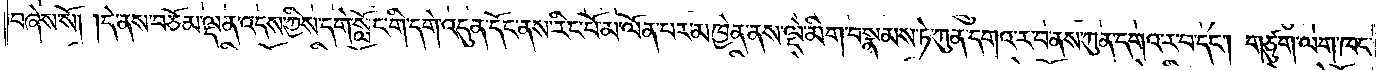བཞེས་སོ། །དེ་ནས་བཅོམ་ལྡན་འདས་ཀྱིས་དགེ་སློང་གི་དགེ་འདུན་དོང་ནས་རིང་པོ་མ་ལོན་པར་མཁྱེན་ནས་ལྡེ་མིག་བསྣམས་ཏེ་ཀུན་དགའ་ར་བ་ནས་ཀུན་དགའ་ར་བ་དང༌། གཙུག་ལག་ཁང་
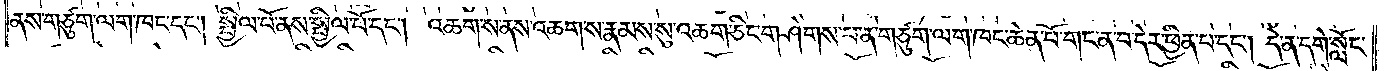ནས་གཙུག་ལག་ཁང་དང༌། སྤྱིལ་པོ་ནས་སྤྱིལ་པོ་དང༌། འཆགས་ནས་འཆགས་རྣམས་སུ་འཆག་ཅིང་གཤེགས་པ་ན་གཙུག་ལག་ཁང་ཆེན་པོ་གང་ན་བ་དེར་ཕྱིན་པ་དང༌། དེ་ན་དགེ་སློང་
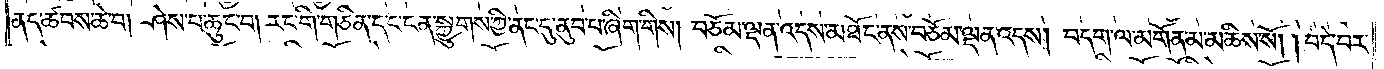ནད་ཚབས་ཆེ་བ། ཤེས་པ་ཆུང་བ། རང་གི་གཅིན་དང་ངན་སྐྱུགས་ཀྱི་ནང་དུ་ནུབ་པ་ཞིག་གིས། བཅོམ་ལྡན་འདས་མཐོང་ནས་བཅོམ་ལྡན་འདས། བདག་ལ་མགོན་མ་མཆིས་སོ། །བདེ་བར་
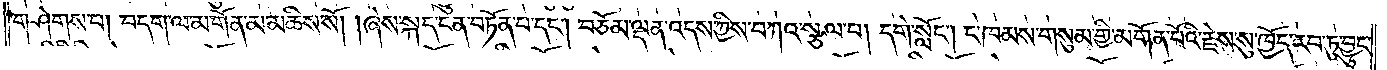གཤེགས་པ། བདག་ལ་མགོན་མ་མཆིས་སོ། །ཞེས་སྐད་ངན་བཏོན་པ་དང༌། བཅོམ་ལྡན་འདས་ཀྱིས་བཀའ་སྩལ་པ། དགེ་སློང༌། ང་ཁམས་གསུམ་གྱི་མགོན་པོའི་རྗེས་སུ་ཁྱོད་རབ་ཏུ་བྱུང་
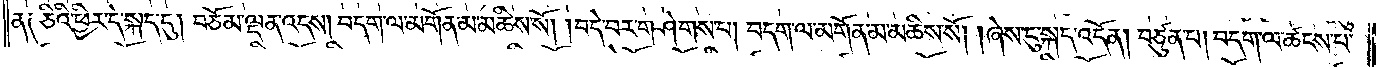ན༑ ཅིའི་ཕྱིར་དེ་སྐད་དུ། བཅོམ་ལྡན་འདས། བདག་ལ་མགོན་མ་མཆིས་སོ། །བདེ་བར་གཤེགས་པ། བདག་ལ་མགོན་མ་མཆིས་སོ། །ཞེས་ངུ་སྐད་འདོན། བཙུན་པ། བདག་ལ་ཚངས་པ་
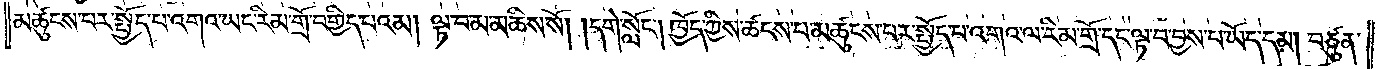མཚུངས་པར་སྤྱོད་པ་འགའ་ཡང་རིམ་གྲོ་བགྱིད་པའམ། ལྟ་བ་མ་མཆིས་སོ། །དགེ་སློང༌། ཁྱོད་ཀྱིས་ཚངས་པ་མཚུངས་པར་སྤྱོད་པ་འགའ་ལ་རིམ་གྲོ་དང་ལྟ་བ་བྱས་པ་ཡོད་དམ། བཙུན་
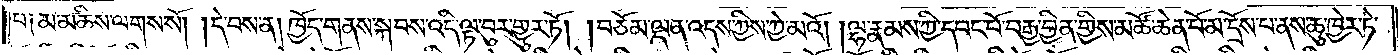པ༑ མ་མཆིས་ལགས་སོ། །དེ་བས་ན། ཁྱོད་གནས་སྐབས་འདི་ལྟ་བུར་གྱུར་ཏོ། །བཅོམ་ལྡན་འདས་ཀྱིས་ཀྱེ་མའོ། །ལྷ་རྣམས་ཀྱི་དབང་པོ་བརྒྱ་བྱིན་གྱིས་མཚོ་ཆེན་པོ་མ་དྲོས་པ་ནས་ཆུ་ཁྱེར་ཏེ་
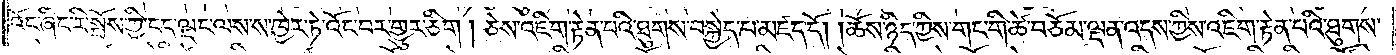འོང་ཞིང་རི་སྤོས་ཀྱི་ངད་ལྡང་ལས་ས་ཁྱེར་ཏེ་འོང་བར་གྱུར་ཅིག །ཅེས་འཇིག་རྟེན་བའི་ཐུགས་བསྐྱེད་པ་མཛད་དོ། །ཆོས་ཉིད་ཀྱིས་གང་གི་ཚེ་བཅོམ་ལྡན་འདས་ཀྱིས་འཇིག་རྟེན་པའི་ཐུགས་
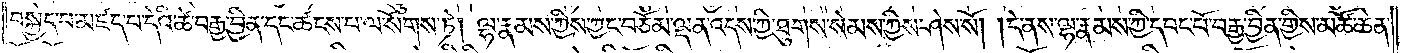བསྐྱེད་པ་མཛད་པ་དེའི་ཚེ་བརྒྱ་བྱིན་དང་ཚངས་པ་ལ་སོགས་ཏེ། ལྷ་རྣམས་ཀྱིས་ཀྱང་བཅོམ་ལྡན་འདས་ཀྱི་ཐུགས་སེམས་ཀྱིས་ཤེས་སོ། །དེ་ནས་ལྷ་རྣམས་ཀྱི་དབང་པོ་བརྒྱ་བྱིན་གྱིས་མཚོ་ཆེན་
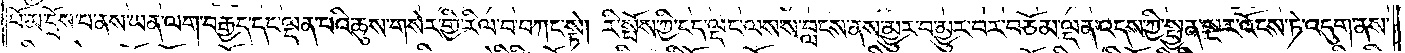པོ་མ་དྲོས་པ་ནས་ཡན་ལག་བརྒྱད་དང་ལྡན་པའི་ཆུས་གསེར་གྱི་རིལ་བ་བཀང་སྟེ། རི་སྤོས་ཀྱི་ངད་ལྡང་ལས་ས་བླངས་ནས་མྱུར་བ་མྱུར་བར་བཅོམ་ལྡན་འདས་ཀྱི་སྤྱན་སྔར་འོངས་ཏེ་འདུག་ནས་
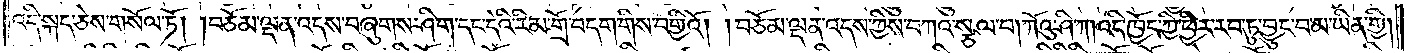འདི་སྐད་ཅེས་གསོལ་ཏོ། །བཅོམ་ལྡན་འདས་བཞུགས་ཤིག་དང་དེའི་རིམ་གྲོ་བདག་གིས་བགྱིའོ། །བཅོམ་ལྡན་འདས་ཀྱིས་བཀའ་སྩལ་པ། ཀོའུ་ཤི་ཀ། འདི་ཁྱོད་ཀྱི་ཕྱིར་རབ་ཏུ་བྱུང་བ་མ་ཡིན་གྱི།
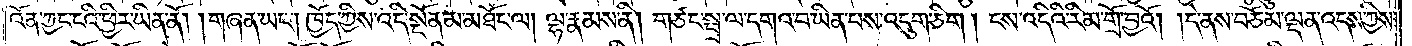འོན་ཀྱང་ངའི་ཕྱིར་ཡིན་ནོ། །གཞན་ཡང༌། ཁྱོད་ཀྱིས་འདི་སྔོན་མ་མཐོང་ལ། ལྷ་རྣམས་ནི། གཙང་སྦྲ་ལ་དགའ་བ་ཡིན་པས་འདུག་ཅིག །ངས་འདིའི་རིམ་གྲོ་བྱའོ། །དེ་ནས་བཅོམ་ལྡན་འདས་ཀྱིས་
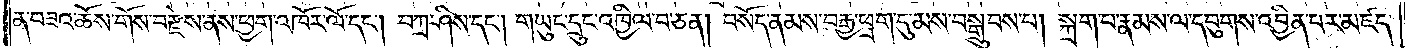ན་བཟའ་ཆོས་གོས་བརྫེས་ནས་ཕྱག་འཁོར་ལོ་དང༌། བཀྲ་ཤིས་དང༌། གཡུང་དྲུང་འཁྱིལ་བ་ཅན། བསོད་ནམས་བརྒྱ་ཕྲག་དུ་མས་བསྒྲུབས་པ། སྐྲག་པ་རྣམས་ལ་དབུགས་འབྱིན་པར་མཛད་
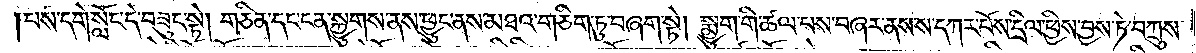།པས་དགེ་སློང་དེ་བཟུང་སྟེ། གཅིན་དང་ངན་སྐྱུགས་ནས་ཕྱུང་ནས་མཐའ་གཅིག་ཏུ་བཞག་སྟེ། སྨྱུག་གི་ཚལ་པས་བཞར་ནས་ས་དཀར་པོས་དྲིལ་ཕྱིས་བྱས་ཏེ་བཀྲུས་
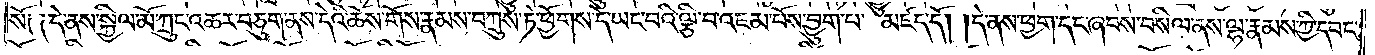སོ༑ ༑དེ་ནས་སྐྱིལ་མོ་ཀྲུང་འཆར་བཅུག་ནས་དེའི་ཆོས་གོས་རྣམས་བཀྲུས་ཏེ་ཕྱོགས་དེ་ཡང་པའི་ལྕི་བ་འཇམ་པོས་བྱུག་པ་མཛད་དོ། །དེ་ནས་ཕྱག་དང་ཞབས་བསིལ་ནས་ལྷ་རྣམས་ཀྱི་དབང་
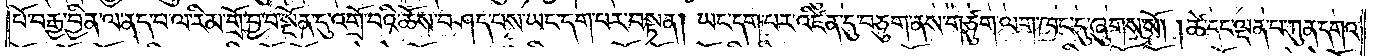པོ་བརྒྱ་བྱིན་ལ་ནད་པ་ལ་རིམ་གྲོ་བྱ་བ་སྔོན་དུ་འགྲོ་བའི་ཆོས་བཤད་པས་ཡང་དག་པར་བསྟན། ཡང་དག་པར་འཛིན་དུ་བཅུག་ནས་གཙུག་ལག་ཁང་དུ་ཞུགས་སོ། །ཚེ་དང་ལྡན་པ་ཀུན་དགའ་
